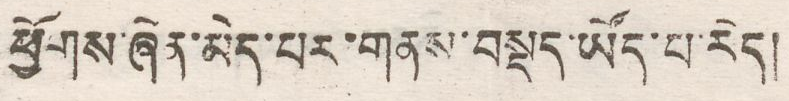ཕྱོགས་ཞེན་མེད་པར་གནས་བསྡད་ཡོད་པ་རེད།
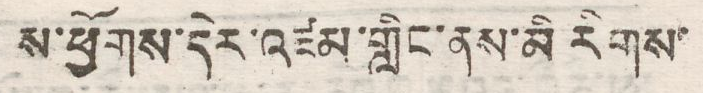ས་ཕྱོགས་དེར་འཛམ་གླིང་ནས་མི རིགས་
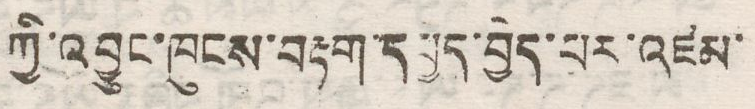ཀྱི་འབྱུང་ཁུངས་བརྟག་དཔྱད་བྱེད་པར་འཛམ་
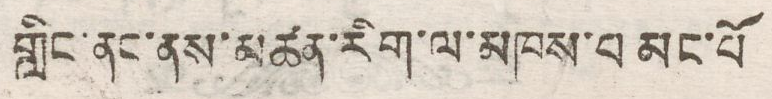གླིང་ནང་ནས་མཚན་རིག་ལ་མཁས་པ མང་པོ
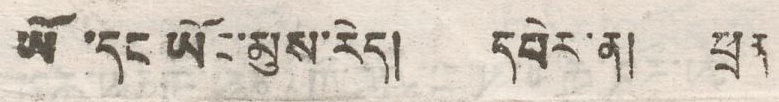ཡོ་དང ཡོང་མུས་རེད། དཔེར་ན། ཕྲན
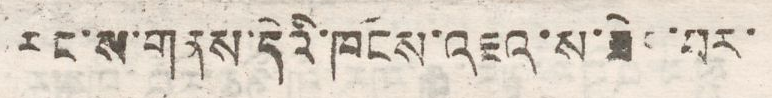རང་ས་གནས་དེའི་ཁོངས་འཇའ་ས་ཟེར་པར་
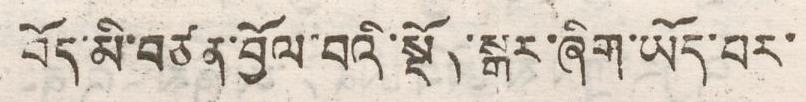བོད་མི་བཙན་བྱོལ་བའི་སྡོད་སྒར་ཞིག་ཡོད་པར་
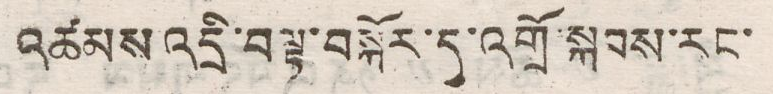འཚམས་འདྲི་བལྟ་བསྐོར་དུ་འགྲོ་སྐབས་རང་
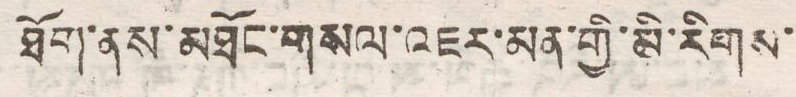ཐོག་ནས་མཐོང་གསལ་འཇར་མན་གྱི་མི་རིགས་
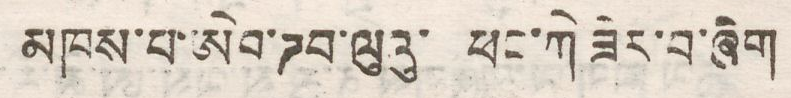མཁས་པ་ཨེབ་ཌབ་ལུའུ་ ཕང་ཀེ་ཟེར་བ་ཞིག
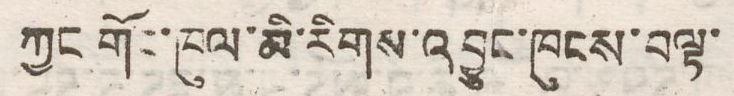ཀྱང གོང་ཁུལ་མི་རིགས་འབྱུང་ཁུངས་བལྟ་
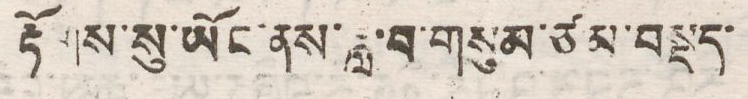རྟོགས་སུ་ཡོང་ནས་ཟླ་བ་གསུམ་ཙམ་བསྡད་
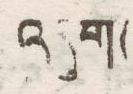འདུག།
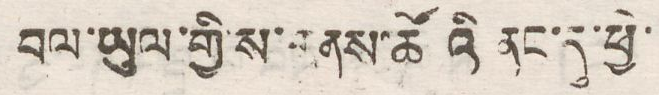བལ་ཡུལ་གྱི་ས་གནས་ཚོའི ནང་དུ་ཕྱི་
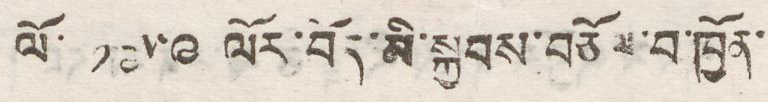ལོ་ ༡༩༥༩ ལོར་བོད་མི་སྐྱབས་བཅོལ་བ་ཁྱོན་
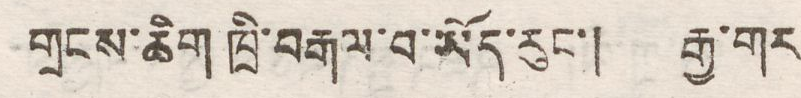གྲངས་ཆིག ཁྲི་བརྒལ་བ་ཡོད་རུང་། རྒྱ་གར
